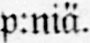p:niä.
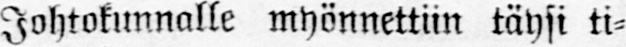Johtokunnalle myönnettiin täysi ti-
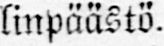linpäästö.
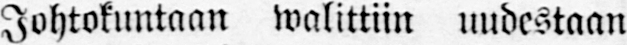Johtokuntaan walittiin uudestaan
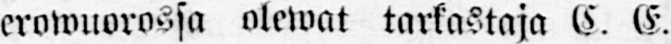erowuorossa olewat tarkastaja C. E.
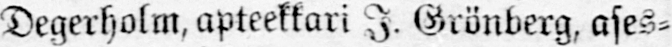Degerholm, apteekkari I. Grönberg, ases-
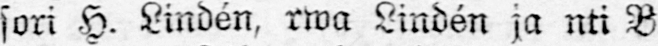sori H. Lindén, rwa Lindén ja nti B.
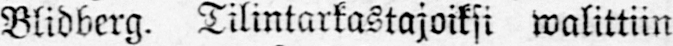Blidberg. Tilintarkastajoiksi walittiin
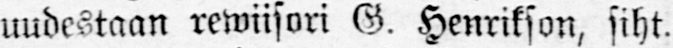uudestaan rewiisori G. Henrikson, siht.
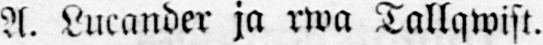A. Lucander ja rwa Tallqwist.
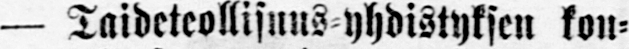— Taideteollisuus yhdistyksen kou-
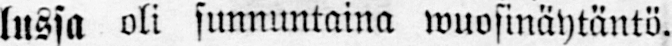lussa oli sunnuntaina wuosinäytäntö.
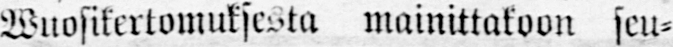Wuosikertomuksesta mainittakoon seu-
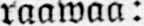raamaa:
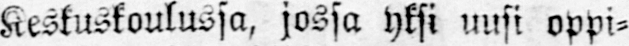Keskuskoulussa, jossa yksi uusi oppi-
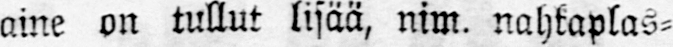aine on tullut lisää, mm. nahkaplas-
